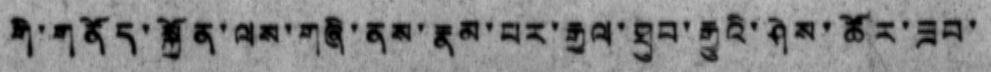གི་གནོད་སྐྱོན་ལས་གཞི་ནས་རྣམ་པར་རྒྱལ་ཐུབ་རྒྱུའི་ཤེས་ཚོར་ཟབ་
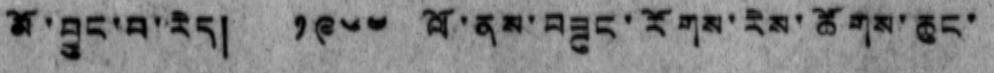མོ་བྱུང་བ་རེད། ༡༩༦༤ ལོ་ནས་བཟུང་རོགས་རེས་ཚོགས་ཆུང་
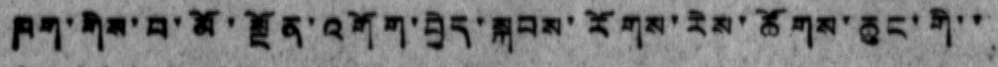ཁག་གིས་བ་མོ་སྔོན་འགོག་བྱེད་སྐབས་རོགས་རེས་ཚོགས་ཆུང་གི་་
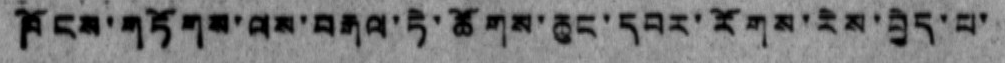ཁོངས་གཏོགས་ལས་བརྒལ་ཏེ་ཚོགས་ཆུང་དབར་རོགས་རེས་བྱེད་པ་
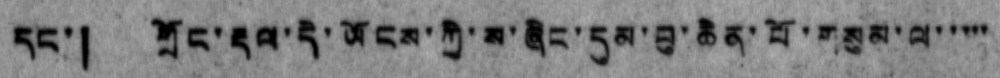དང་། གྲོང་རྡལ་དེ་ཡོངས་ཀྱི་ས་ཞིང་དུམ་བུ་ཆེན་པོ་གསུམ་ལ་་་་་
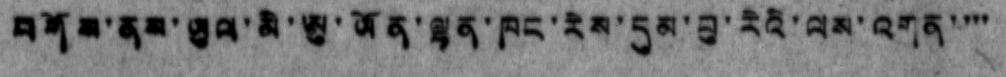བགོས་ནས་ཡུལ་མི་ཨུ་ཡོན་ལྷན་ཁང་རེས་དུམ་བུ་རེའི་ལས་འགན་་་་
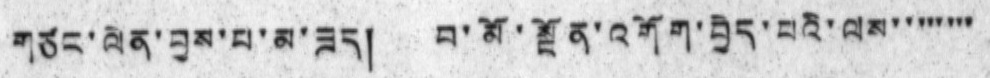གཙང་ལེན་བྱས་པ་མ་ཟད། བ་མོ་སྔོན་འགོག་བྱེད་པའི་ལས་་་་་་་་
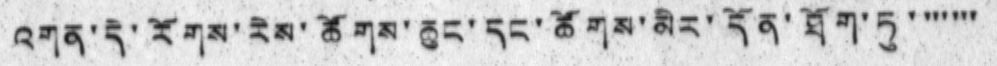འགན་དེ་རོགས་རེས་ཚོགས་ཆུང་དང་ཚོགས་མིར་དོན་ཐོག་ཏུ་ ་་་་་་
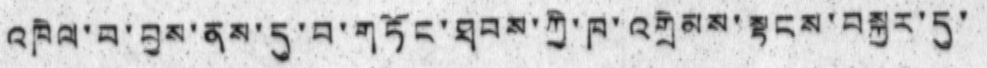འཁེལ་བ་བྱས་ནས་དུ་བ་གཏོང་ཐབས་ཀྱི་ཁ་འགྲེམས་སྟངས་བསྐྱར་དུ་
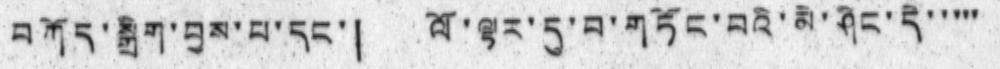བཀོད་སྒྲིག་བྱས་པ་དང་། ལོ་ལྟར་དུ་བ་གཏོང་བའི་མི་ཤིང་དེ་་་་་
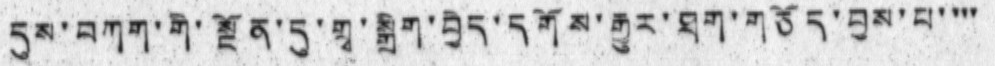དུས་བཀག་གི་སྔོན་དུ་གྲྭ་སྒྲིག་བྱེད་དགོས་རྒྱུར་ཐག་གཅོད་བྱས་པ་་་་
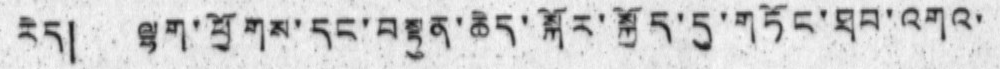རེད། ལྷག་ཕྱོགས་དང་བསྟུན་ཆེད་སྐོར་སྐྱོད་དུ་གཏོང་ཐབ་འགའ་
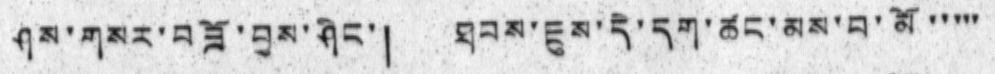ཤས་གསར་བཟོ་བྱས་ཤིང་། ཐབས་ཇུས་དེ་དག་ཚང་མས་བ་མོ་་་་་
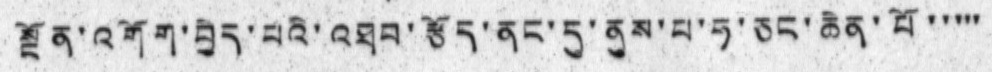སྔོན་འགོག་བྱེད་པའི་འཐབ་རྩོད་ནང་དུ་ནུས་པ་ཧ་ཅང་ཆེན་པོ་་་་་
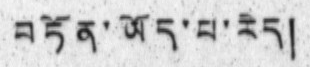བཏོན་ཡོད་པ་རེད།
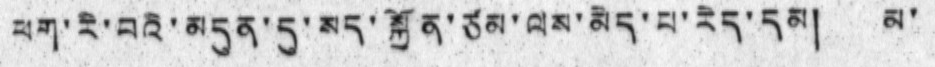ཕག་རི་བའི་མདུན་དུ་སད་སྐྱོན་ཙམ་ལས་མེད་པ་རེད་དམ། མ་
